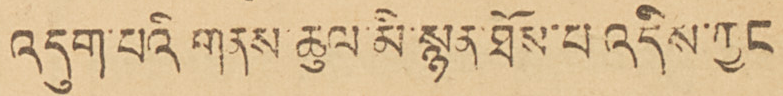འདུག་པའི གནས་ཆུལ་མི་སྙན་ཐོས་པ འདིས་ཀྱང
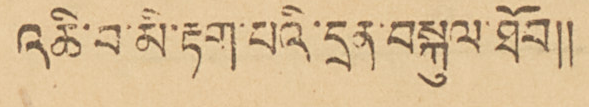འཆི་བ་མི་རྟག་པའི་དྲན་བསྐུལ་ཐོབ།།
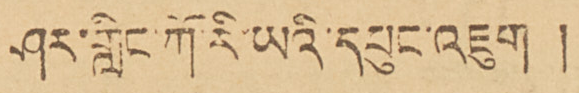ཤར་གླིང་ཀོ་རི་ཡའི་དཔུང་འཇུག །
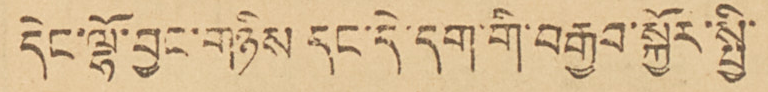དེང་ལྷོ་བྱང་གཉིས དང་དེ་དག་གི་བརྒྱབ་སྐྱོར་སྤྱི་
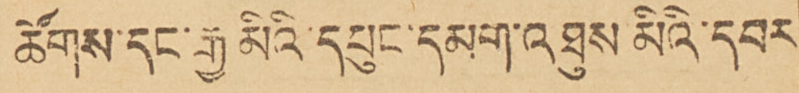ཚོགས་དང་རྒྱ་མིའི་དཔུང་དམག་འཐུས མིའི་དབར
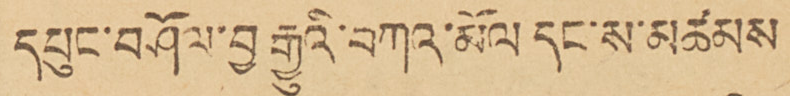དཔུང་བཤོལ་བྱ་རྒྱུའི་བཀའ་མོལ དང་ས་མཚམས
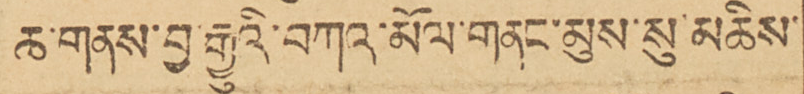ཆ་གནས་བྱ་རྒྱུའི་བཀའ་མོལ་གནང་མུས་སུ་མཆིས་
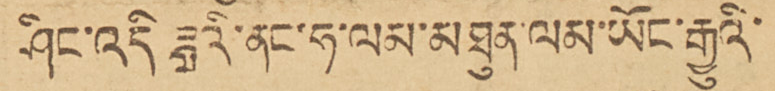ཤིང་འདི ཟླའི་ནང་ཧ་ལམ་མཐུན་ལམ་ཡོང་རྒྱུའི་
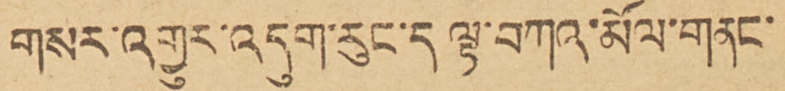གསར་འགྱུར་འདུག་རུང་ད ལྟ་བཀའ་མོལ་གནང་
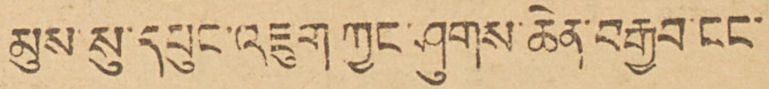མུས་སུ་དཔུང་འཇུག ཀྱང་ཤུགས་ཆེན་བརྒྱབ་ངང་
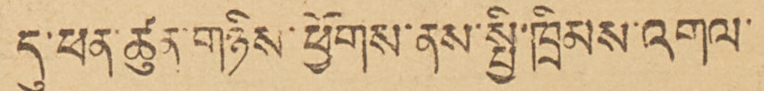ད་ཕན་ཚུན་གཉིས་ཕྱོགས་ནས་སྤྱི་ཁྲིམས་འགལ་
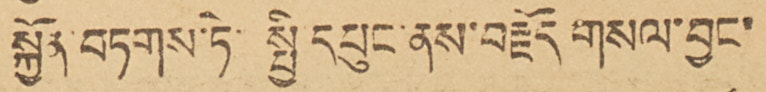སྐྱོན་བཏགས་ཏེ་སྤྱི དཔུང་ནས་བརྗོད གསལ་བྱང་
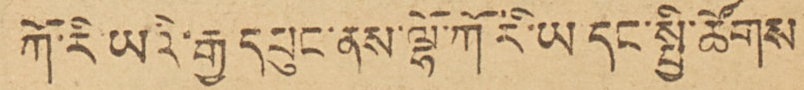ཀོ་རི་ཡའི་རྒྱ་དཔུང་ནས་ལྷོ་ཀོརི་ཡ་དང་སྤྱི་ཚོགས
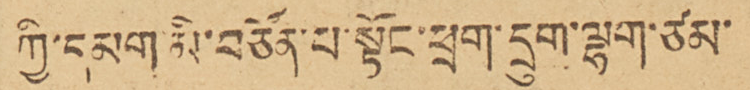ཀྱི་དམག་མི་བཙོན་པ་སྟོང་ཕྲག་དྲུག་ལྷག་ཙམ་
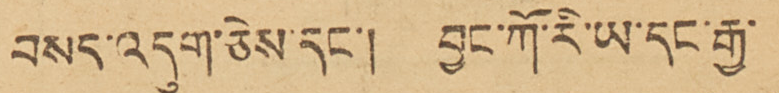བསད་འདུག་ཅེས་དང་། བྱང་ཀོ་རི་ཡ་དང་རྒྱ་
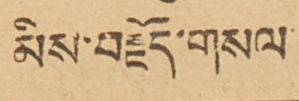མིས་བརྗོད་གསལ་ ( འཕྲོས་ཨང་ ༢ པར་གཟིཌ་)
